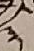༣
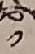༡
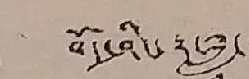བོད་ཤིང་རྟ་ཟླ་
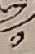༡
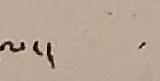ལ་།
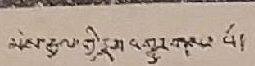མེས་རྒྱལ་གྱིས་གསར་འགྱུར་གསལ་པོ་
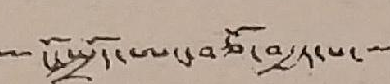ངོ་སྤྲོད་ཨང་བཅོ་བརྒྱད་པ་
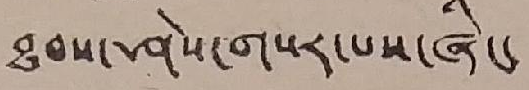ཐབས་ཤེས་གསར་པས་ཞིང་
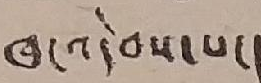ཁང་འདེབས་པ་།
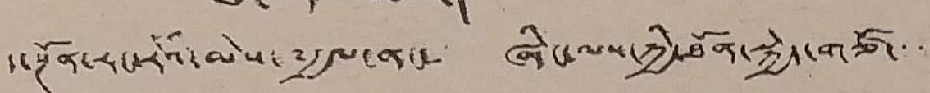ད་སྔོན་རང་རེའི་མེས་༸རྒྱལ་ནང་ ཞིང་ལས་ཀྱི་ཐོན་སྐྱེད་གཙོ་་་་
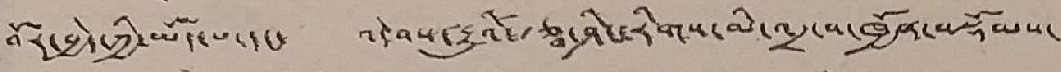བོར་བྱེད་ཀྱི་ཡོད་པ་དང་ འདེབས་རྒྱུའི་རྩྭ་ཤིང་རིགས་མི་འདྲ་བ་ཁྱོན་བསྡོམས་
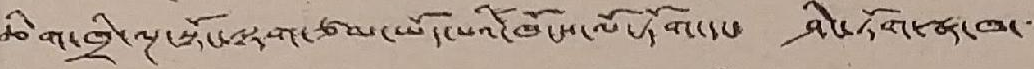ཆིག་ཁྲི་ལྔ་སྟོང་ལྷག་ཙམ་ཡོད་པའི་ཁོངས་ལོ་ཏོག་དང་ ཤིང་ཏོག་སྣ་ཁ་
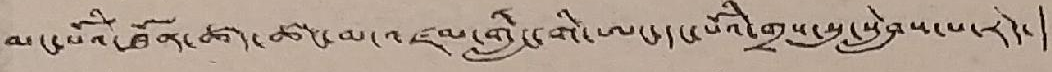མང་པོའི་ཐོནན་ཚད་ཚང་མ་འཛམ་གླིང་གི་ཨང་དང་པོའི་གྲས་སུ་སླེབས་པ་རེད་།
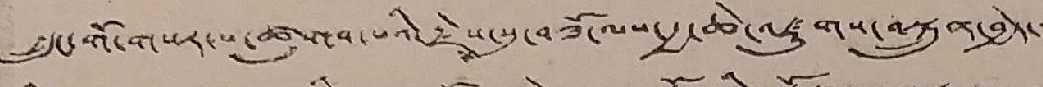ཀྲུང་གོ་གསར་པ་ཚུགས་པའི་རྗེས་སུ་བཟོ་ལས་རྒྱ་ཆེ་འཛུགས་བསྐྲུན་བྱེད་
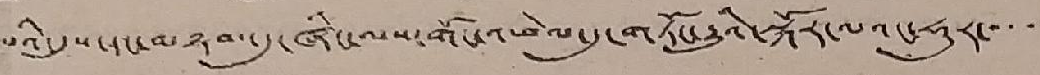པའི་དུས་དང་མཉམམ་དུ་ཞིང་ལས་གོང་འཕེལ་དུ་གཏོང་རྒྱུའི་སྐོར་ལའང་ཧུར་་་་་
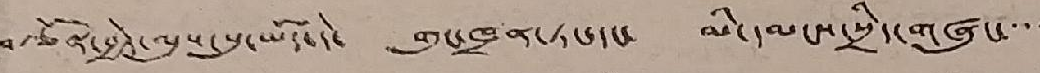བརྩོན་བྱེད་ལུས་སུ་ཡོད་དེ་ གུང་ཁྲན་ཏང་དང་ མི་དམངས་སྲིད་གཞུང་་་་
